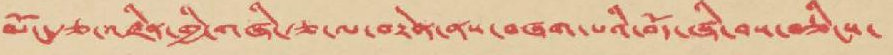མོང་རྩ་འཛིན་གྱི་གཞི་རྩ་ལ་བརྟེན་ནས་བཞག་པའི་བོད་ཞི་བས་བཅིངས་
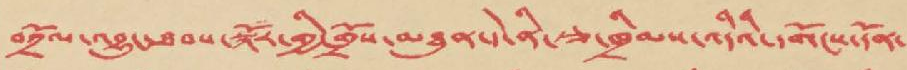བཀྲོལ་འབྱུང་ཐབས་སྐོར་གྱི་གྲོས་མཐུན་དེ་ནི་རྩ་ཁྲིམས་འདིའི་དགོངས་དོན་
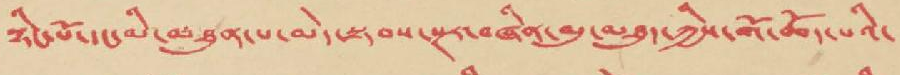སྙིང་པོ་དང་མི་མཐུན་པ་མེད་སྟབས་སྔར་བཞིན་མུ་མཐུད་ཀྱིས་གོ་ཆོད་པའི་
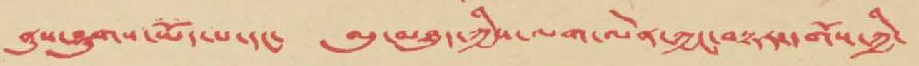ནུས་ཤུགས་ཡོད་པ་དང་ མུ་མཐུད་ཀྱིས་ལག་ལེན་ཀྱང་བསྟར་དགོས་ཀྱི་
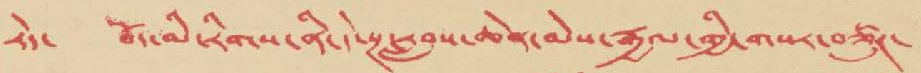རེད་ བོད་མི་རིགས་ནི་དེ་སྔ་རླབས་ཆེན་མེས་རྒྱལ་གྱི་གསར་བཙུཊ་
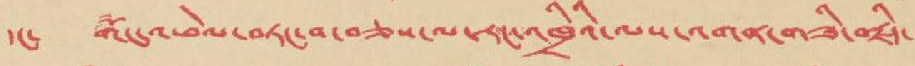དང་ གོང་འཕེལ་བཏང་བ་བཅས་ལ་རང་འཁྲིའི་ལས་འགན་གཟི་བརྗིད་
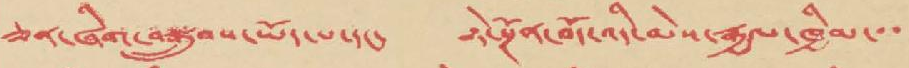ཅན་ཞིག་བསྒྲུབས་ཡོད་པ་དང་ དེ་སྔོན་བོད་འདི་མེས་རྒྱལ་ཁྱིམ་་་
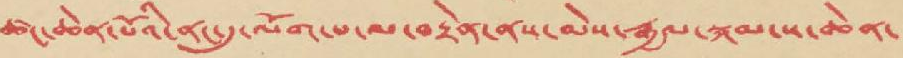ཚང་ཆེན་པོའི་ནང་དུ་ལོག་པ་ལ་བརྟེན་ནས་མེས་རྒྱལ་སྐམ་ས་ཆེན་
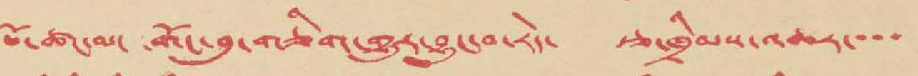པོ་ཚང་མ་ གོང་བུ་གཅིག་གྱུར་བྱུང་བ་རེད་ རྩ་ཁྲིམས་འཆར་་་་
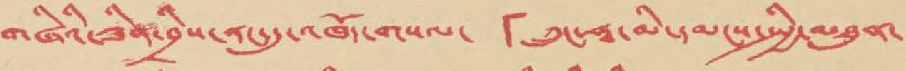གཞིའི་ཟིན་བྲིས་ནང་དུ་འཁོད་གསལ་ 「ཀྲུང་ཧཱ་མི་དམངས་སྤྱི་མཐུན་
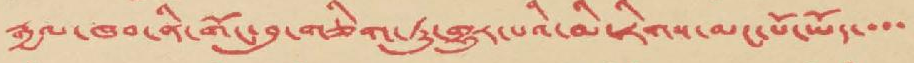རྒྱལ་ཁབ་ནི་གོང་བུ་གཅིག་ཏུ་གྱུར་པའི་མི་རིགས་མང་པོ་ཡོད་་་་
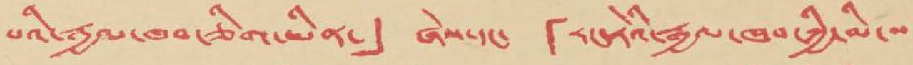པའི་རྒྱལ་ཁབ་ཅིག་ཡིན་」 ཞེས་དང་ 「རང་རེའི་རྒྱལ་ཁབ་ཀྱི་མི་་་
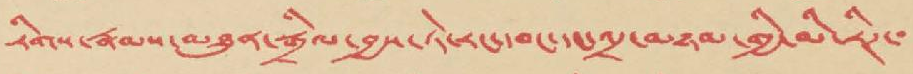རིགས་རྣམས་མཐུན་སྒྲིལ་བྱས་ཏེ་རང་དབང་དང་འདྲ་མཉམ་གྱི་མི་རིཊ་་
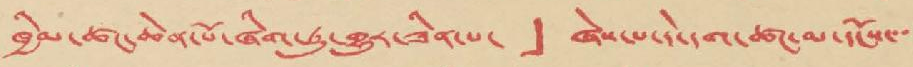ཁྱིམ་ཚང་ཆེན་པོ་ཞིག་ཏུ་གྱུར་ཟིན་པ་」 ཞེས་པ་དེ་དག་ཚང་མ་དངོས་་་
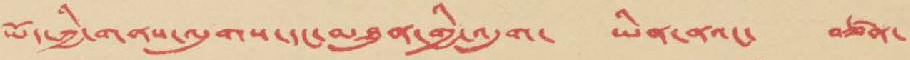ཡོད་ཀྱི་གནས་ལུགས་དང་མཐུན་གྱི་འདུག་ ཡིན་ནའང་ བཙན་
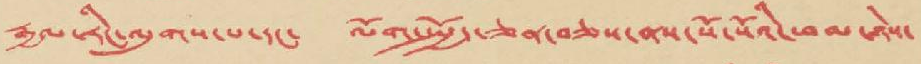རྒྱལ་རིང་ལུགས་པ་དང་ ལོག་སྤྱོད་ཅན་བཅས་ནས་སོ་སོའི་ཕམ་ཉེས་
